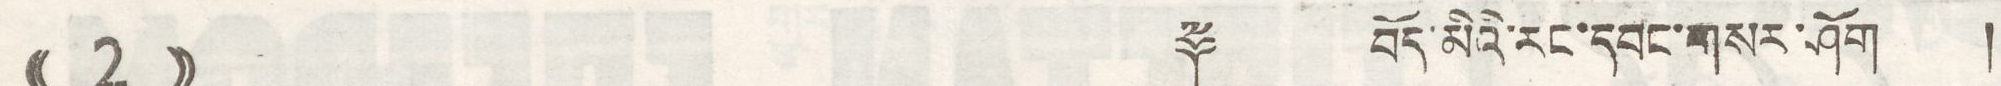(( 2 )) ༈ བོད་མིའི་རང་དབང་གསར་ཤོག །
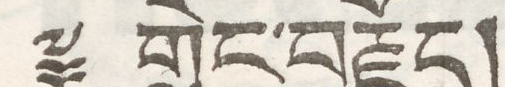༈ གླེང་བརྗོད།
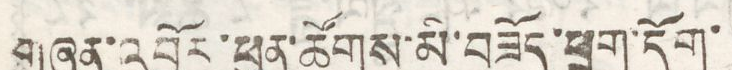གཞན་འབྱོར་ཕུན་ཚོགས་མི་བཟོད་ཕྲག་དོག་
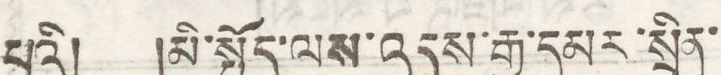པའི། །མི་སྤྱོད་ལས་འདས་རྒྱ་དམར་སྲིན་
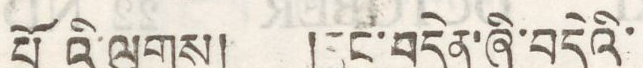པོའི་ལུགས། །དྲང་བདེན་ཞི་བདེའི་
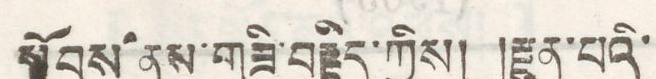སྟོབས་ནུས་གཟི་བརྗིད་ཀྱིས། རྫུན་པའི་
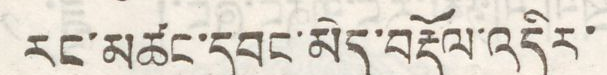རང་མཚང་དབང་མེད་བརྡོལ་འདིར་
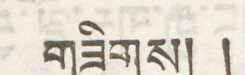གཟིགས། །
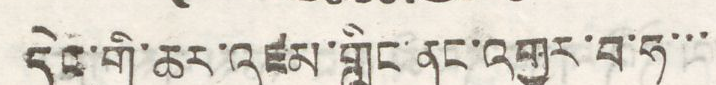དེང་གི་ཆར་འཛམ་གླིང་ནང་འགྱུར་བ་ཧ་་་
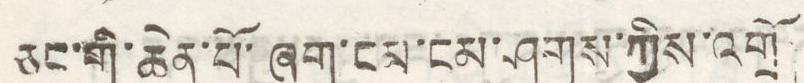ཅང་གི་ཆེན་པོ་ཤག་ངམ་ངམ་ཤུགས་ཀྱིས་འགྲོ
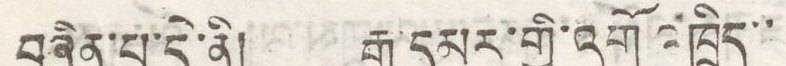བཞིན་པ་དེ་ནི། རྒྱ་དམར་གྱི་འགོ འཁྲིད་་
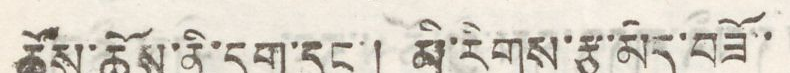ཚོས་ཆོས་ནི་དུག་དང་། མ་རིགས་རྩ་མེད་བཟོ་་
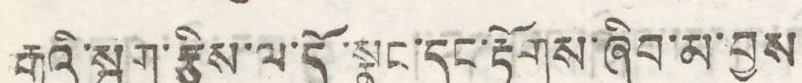རྒྱུའི་སྦུག་རྩིས་ལ་དོ་སྣང་དང་རྟོགས་ཞིབ་མ་བྱས
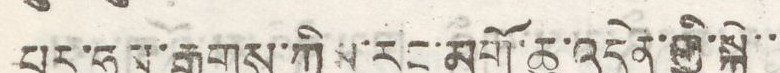པར་ཧལ་རྒྱུགས་ཀྱིས་རང་མགོ་ཆུ་འདྲེན་གྱི་སྐྱེ་་
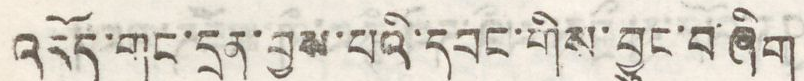འདོད་གང་དྲན་བྱས་པའི་དབང་གིས་བྱུང་བ་ཞིག
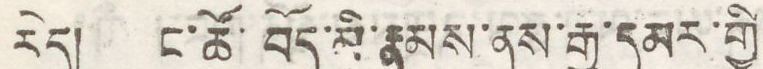རེད། ང་ཚོ་བོད་མི་རྣམས་ནས་རྒྱ་དམར་གྱི
